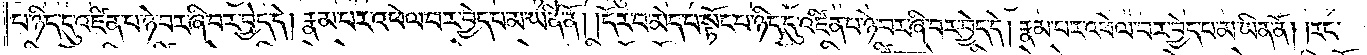པ་ཉིད་དུ་འཛིན་པ་ཉེ་བར་ཞི་བར་བྱེད་དེ། རྣམ་པར་འཕེལ་བར་བྱེད་པ་མ་ཡིན་ནོ། །དོར་བ་མེད་པ་སྟོང་པ་ཉིད་དུ་འཛིན་པ་ཉེ་བར་ཞི་བར་བྱེད་དེ། རྣམ་པར་འཕེལ་བར་བྱེད་པ་མ་ཡིན་ནོ། །རང་
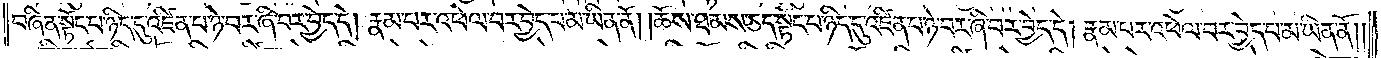བཞིན་སྟོང་པ་ཉིད་དུ་འཛིན་པ་ཉེ་བར་ཞི་བར་བྱེད་དེ། རྣམ་པར་འཕེལ་བར་བྱེད་པ་མ་ཡིན་ནོ། །ཆོས་ཐམས་ཅད་སྟོང་པ་ཉིད་དུ་འཛིན་པ་ཉེ་བར་ཞི་བར་བྱེད་དེ། རྣམ་པར་འཕེལ་བར་བྱེད་པ་མ་ཡིན་ནོ༎
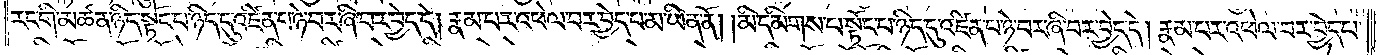རང་གི་མཚན་ཉིད་སྟོང་པ་ཉིད་དུ་འཛིན་པ་ཉེ་བར་ཞི་བར་བྱེད་དེ། རྣམ་པར་འཕེལ་བར་བྱེད་པ་མ་ཡིན་ནོ། །མི་དམིགས་པ་སྟོང་པ་ཉིད་དུ་འཛིན་པ་ཉེ་བར་ཞི་བར་བྱེད་དེ། རྣམ་པར་འཕེལ་བར་བྱེད་པ་
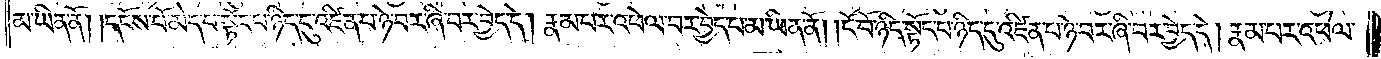མ་ཡིན་ནོ། །དངོས་པོ་མེད་པ་སྟོང་པ་ཉིད་དུ་འཛིན་པ་ཉེ་བར་ཞི་བར་བྱེད་དེ། རྣམ་པར་འཕེལ་བར་བྱེད་པ་མ་ཡིན་ནོ། །ངོ་བོ་ཉིད་སྟོང་པ་ཉིད་དུ་འཛིན་པ་ཉེ་བར་ཞི་བར་བྱེད་དེ། རྣམ་པར་འཕེལ་
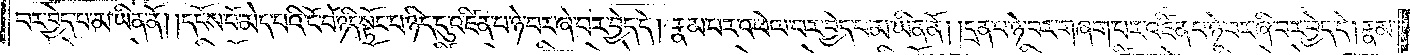བར་བྱེད་པ་མ་ཡིན་ནོ། །དངོས་པོ་མེད་པའི་ངོ་བོ་ཉིད་སྟོང་པ་ཉིད་དུ་འཛིན་པ་ཉེ་བར་ཞི་བར་བྱེད་དེ། རྣམ་པར་འཕེལ་བར་བྱེད་པ་མ་ཡིན་ནོ། །དྲན་པ་ཉེ་བར་གཞག་པར་འཛིན་པ་ཉེ་བར་ཞི་བར་བྱེད་དེ། རྣམ་
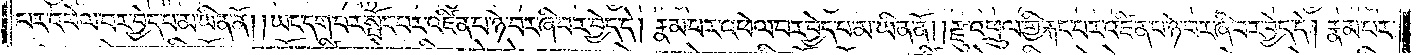པར་འཕེལ་བར་བྱེད་པ་མ་ཡིན་ནོ། །ཡང་དག་པར་སྤོང་བར་འཛིན་པ་ཉེ་བར་ཞི་བར་བྱེད་དེ། རྣམ་པར་འཕེལ་བར་བྱེད་པ་མ་ཡིན་ནོ། །རྫུ་འཕྲུལ་གྱི་རྐང་པར་འཛིན་པ་ཉེ་བར་ཞི་བར་བྱེད་དེ། རྣམ་པར་
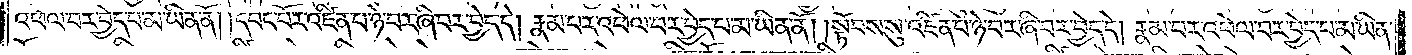འཕེལ་བར་བྱེད་པ་མ་ཡིན་ནོ། །དབང་པོར་འཛིན་པ་ཉེ་བར་ཞི་བར་བྱེད་དེ། རྣམ་པར་འཕེལ་བར་བྱེད་པ་མ་ཡིན་ནོ། །སྟོབས་སུ་འཛིན་པ་ཉེ་བར་ཞི་བར་བྱེད་དེ། རྣམ་པར་འཕེལ་བར་བྱེད་པ་མ་ཡིན་
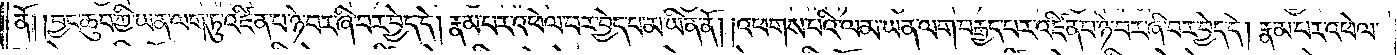ནོ། །བྱང་ཆུབ་ཀྱི་ཡན་ལག་ཏུ་འཛིན་པ་ཉེ་བར་ཞི་བར་བྱེད་དེ། རྣམ་པར་འཕེལ་བར་བྱེད་པ་མ་ཡིན་ནོ། །འཕགས་པའི་ལམ་ཡན་ལག་བརྒྱད་པར་འཛིན་པ་ཉེ་བར་ཞི་བར་བྱེད་དེ། རྣམ་པར་འཕེལ་
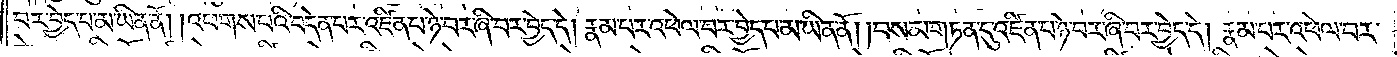བར་བྱེད་པ་མ་ཡིན་ནོ། །འཕགས་པའི་བདེན་པར་འཛིན་པ་ཉེ་བར་ཞི་བར་བྱེད་དེ། རྣམ་པར་འཕེལ་བར་བྱེད་པ་མ་ཡིན་ནོ། །བསམ་གཏན་དུ་འཛིན་པ་ཉེ་བར་ཞི་བར་བྱེད་དེ། རྣམ་པར་འཕེལ་བར་
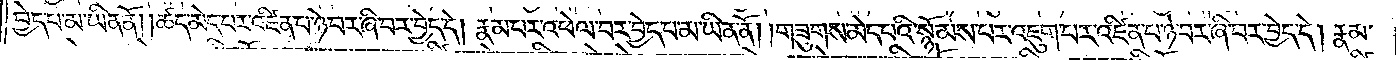བྱེད་པ་མ་ཡིན་ནོ། །ཚད་མེད་པར་འཛིན་པ་ཉེ་བར་ཞི་བར་བྱེད་དེ། རྣམ་པར་འཕེལ་བར་བྱེད་པ་མ་ཡིན་ནོ། །གཟུགས་མེད་པའི་སྙོམས་པར་འཇུག་པར་འཛིན་པ་ཉེ་བར་ཞི་བར་བྱེད་དེ། རྣམ་
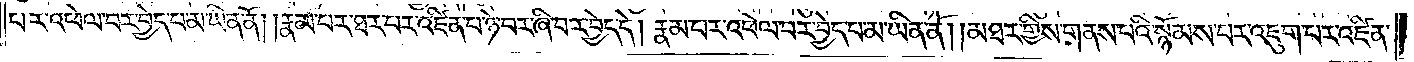པར་འཕེལ་བར་བྱེད་པ་མ་ཡིན་ནོ། །རྣམ་པར་ཐར་པར་འཛིན་པ་ཉེ་བར་ཞི་བར་བྱེད་དེ། རྣམ་པར་འཕེལ་བར་བྱེད་པ་མ་ཡིན་ནོ། །མཐར་གྱིས་གནས་པའི་སྙོམས་པར་འཇུག་པར་འཛིན་
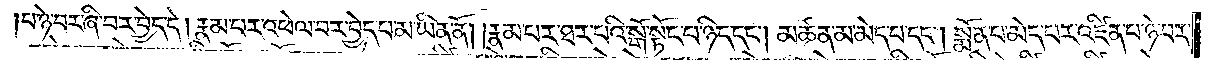པ་ཉེ་བར་ཞི་བར་བྱེད་དེ། རྣམ་པར་འཕེལ་བར་བྱེད་པ་མ་ཡིན་ནོ། །རྣམ་པར་ཐར་པའི་སྒོ་སྟོང་པ་ཉིད་དང༌། མཚན་མ་མེད་པ་དང༌། སྨོན་པ་མེད་པར་འཛིན་པ་ཉེ་བར་
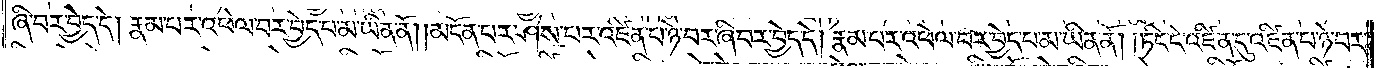ཞི་བར་བྱེད་དེ། རྣམ་པར་འཕེལ་བར་བྱེད་པ་མ་ཡིན་ནོ། །མངོན་པར་ཤེས་པར་འཛིན་པ་ཉེ་བར་ཞི་བར་བྱེད་དེ། རྣམ་པར་འཕེལ་བར་བྱེད་པ་མ་ཡིན་ནོ། །ཏིང་ངེ་འཛིན་དུ་འཛིན་པ་ཉེ་བར་
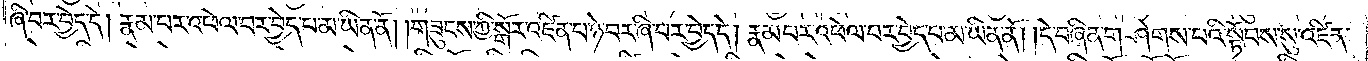ཞི་བར་བྱེད་དེ། རྣམ་པར་འཕེལ་བར་བྱེད་པ་མ་ཡིན་ནོ། །གཟུངས་ཀྱི་སྒོར་འཛིན་པ་ཉེ་བར་ཞི་བར་བྱེད་དེ། རྣམ་པར་འཕེལ་བར་བྱེད་པ་མ་ཡིན་ནོ། །དེ་བཞིན་གཤེགས་པའི་སྟོབས་སུ་འཛིན་
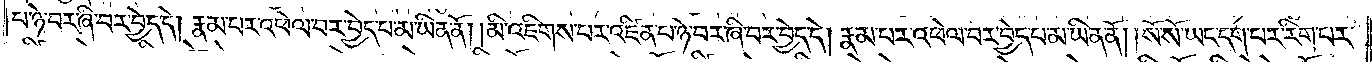པ་ཉེ་བར་ཞི་བར་བྱེད་དེ། རྣམ་པར་འཕེལ་བར་བྱེད་པ་མ་ཡིན་ནོ། །མི་འཇིགས་པར་འཛིན་པ་ཉེ་བར་ཞི་བར་བྱེད་དེ། རྣམ་པར་འཕེལ་བར་བྱེད་པ་མ་ཡིན་ནོ། །སོ་སོ་ཡང་དག་པར་རིག་པར་
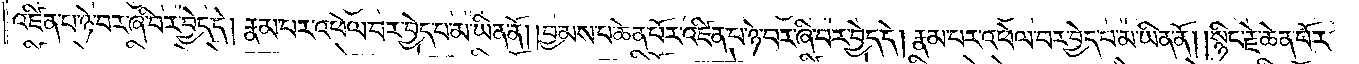འཛིན་པ་ཉེ་བར་ཞི་བར་བྱེད་དེ། རྣམ་པར་འཕེལ་བར་བྱེད་པ་མ་ཡིན་ནོ། །བྱམས་པ་ཆེན་པོར་འཛིན་པ་ཉེ་བར་ཞི་བར་བྱེད་དེ། རྣམ་པར་འཕེལ་བར་བྱེད་པ་མ་ཡིན་ནོ། །སྙིང་རྗེ་ཆེན་པོར་
